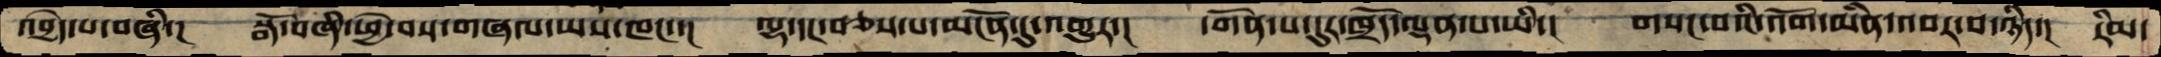འབྱེད་པ་བཞི་།   སྒོ་བཞི་ཕྱེ་བས་གཞལ་ཡས་ཁང་་།  ལྷ་དང་བཅས་པ་མངོན་དུ་འགྱུར་།   དགོན་པ་དུར་ཁྲོད་ལྡན་པ་ཡི་།  གསང་བའི་འོག་མིན་འབར་བ་ཉིད་།  རིམ་
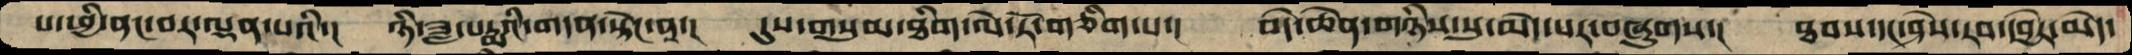པ་ཕྱི་ནང་བར་ལྡན་པའི་།  ཉི་ཟླ་པདྨའི་གདན་སྟེང་ན་།   དུས་གསུམ་ཐིག་ལེ་རོ་གཅིག་པ་།  བདེ་ཆེན་གཉིས་སུ་མེད་པར་བཞུགས་།  ཐབས་དང་ཤེས་རབ་དབྱེར་མེད་
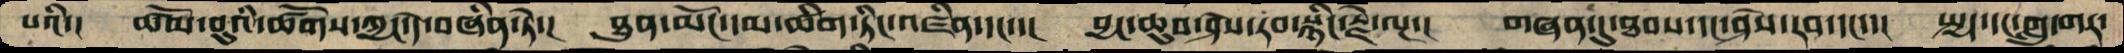པའི་།   ཚོམ་བུའི་ཚོགས་ཀྱང་དེ་བཞིན་ཏེ་།   ཐུན་མོང་དམ་ཚིག་ཏིང་འཛིན་དང་་།  བྱང་ཆུབ་ཤེས་རབ་སྙིང་རྗེ་ལྔ་།  གཞན་དུ་ཐབས་དང་ཤེས་རབ་དང་་།  སྤྱད་དང་གླུ་གར་
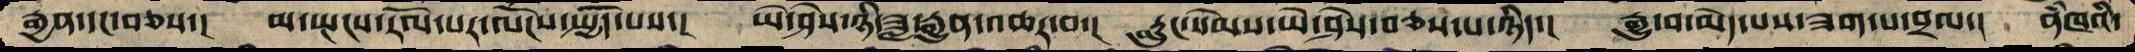རྒྱན་དང་བཅས་།  མ་སྤངས་རོལ་པར་ལོངས་སྤྱོད་པས་།  ཡེ་ཤེས་ཉི་ཟླ་རྒྱུན་འཆར་བ་།  རླུང་སེམས་ཡེ་ཤེས་བཅས་པ་ཉིད་།  རྒྱུ་བ་མེད་པས་ཟག་པ་བྲལ་།  ནཾཁའི་
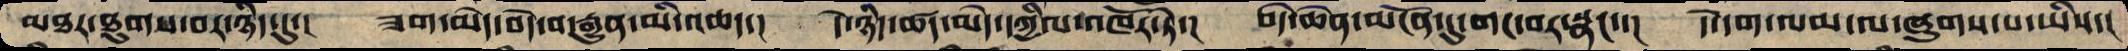མཐར་ཐུགས་བར་ཉིད་དུ་།   ཟག་མེད་བདེ་བ་རྒྱུན་མི་འཆད་།  དེ་ཉིད་ཚད་མེད་དཀྱིལ་འཁོར་ཏེ་།  བདེ་ཆེན་མངོན་དུ་གང་བར་སྣང་་།  དེ་དག་ལམ་ལ་ཞུགས་པ་ཡིས་།
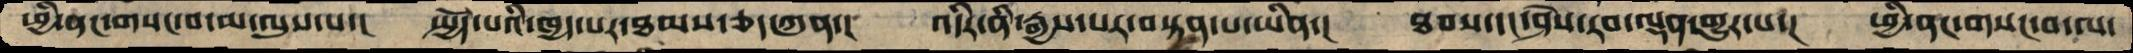ཕྱི་ནང་གསང་བ་མ་ལུས་པ་།  སྤྱོད་པའི་ཁྱད་པར་ཐམས་ཅད་ཀུན་།  འདིར་ནི་རྒྱས་པར་བསྟན་པ་ཡིན་།  ཐབས་དང་ཤེས་རབ་ལྡན་གྱུར་པ་།  ཕྱི་ནང་གསང་བ་ལ་
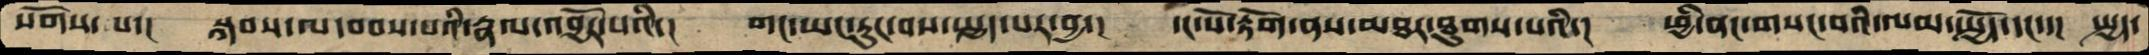སོགས་པ་།  སྐབས་ལ་བབས་པའི་རྣལ་འབྱོར་པའི་།  གང་ཡང་རུང་བས་སྤྱད་པར་བྱ་།  དང་པོ་རྟོག་ནས་མཐར་ཐུགས་པའི་།  ཕྱི་ནང་གསང་བའི་ལམ་སྤྱོད་དང་་།  སྤྱད་
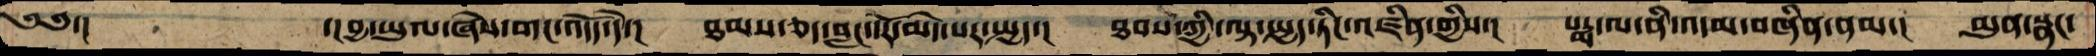༄༅་།      ་།བྱ་ཡུལ་ཞེས་གང་འདོད་དེ་།  ཐམས་ཅད་བླང་དོར་མེད་པར་སྤྱད་།  ཐབས་ཀྱི་ལྟ་སྤྱད་ཏིང་འཛིན་གྱིས་།  པདྨ་ལ་ནི་འདམ་བཞིན་ནམ་།  མུན་སྣང་
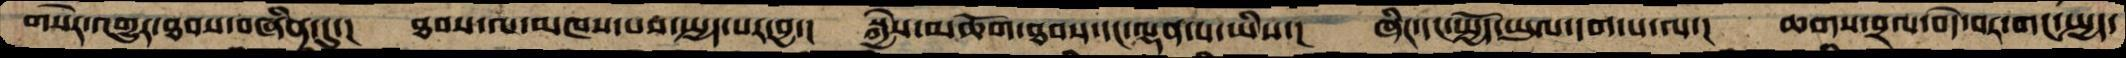གསེར་འགྱུར་ཐབས་བཞིན་དུ་།  ཐབས་ལ་མཁས་པས་སྤྱད་པར་བྱ་།  སྐྱེས་མཆོག་ཐབས་དང་ལྡན་པ་ཡིས་།  ཞིང་དང་སྤྱོད་ཡུལ་དག་པ་ལ་།  ཆགས་བྲལ་བདེ་བར་གང་སྤྱད་
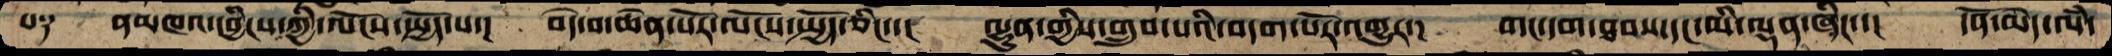པ༑  ནམཁའ་དབྱིངས་ཀྱི་ལོངས་སྤྱོད་པ་།  བདེ་བ་ཆེན་པོར་ལོངས་སྤྱོད་ཅིང་་།  ལྷུན་གྱིས་གྲུབ་པའི་བདག་པོར་འགྱུར་།  གང་དག་ཐབས་དང་མི་ལྡན་ཞིང་་།  དོན་མེད་ལཾ་
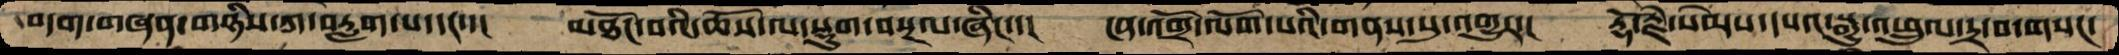བདག་གཞན་གཉིས་ཀ་བརླག་པ་དང་་།  མཐོང་བའི་ཆོས་ལ་སྡུག་བསྔལ་ཞིང་་།  ངན་འགྲོ་ལོག་པའི་གནས་སུ་འགྱུར་།  རྡོ་རྗེ་སེམས་དཔའ་སྒྱུ་འཕྲུལ་དྲ་བ་གསང་
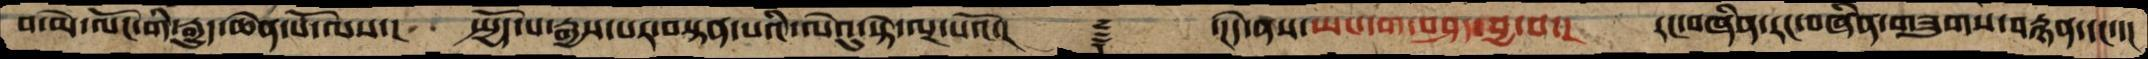མེ་ལོང་གི་རྒྱུད་ཆེན་པོ་ལས་།  སྤྱོད་པ་རྒྱས་པར་བསྟན་པའི་ལེའུ་སྟེ་ལྔ་པའོ་།    ࿑   ་།དེ་ནས་ཡང་དག་བཤད་བྱ་བ་།  རང་བཞིན་རང་བཞིན་གཟུགས་བརྙན་དང་་།
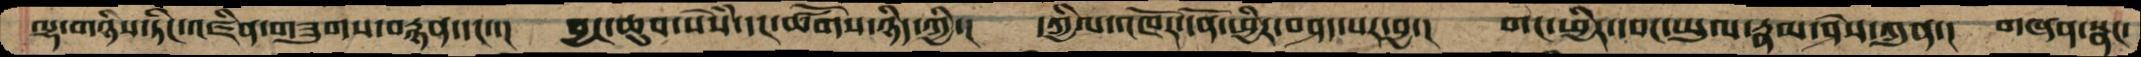ལྷ་གཉིས་ཏིང་འཛིན་གཟུགས་བརྙན་དང་་།  བྱང་ཆུབ་སེཾས་དང་ཚོགས་ཉིད་ཀྱི་།  དཀྱིལ་འཁོར་དོན་ཕྱིར་བཤད་པར་བྱ་།  གང་ཕྱིར་དབང་ཡུལ་རྣམ་ཤེས་ཀུན་།  གཞན་སྣང་
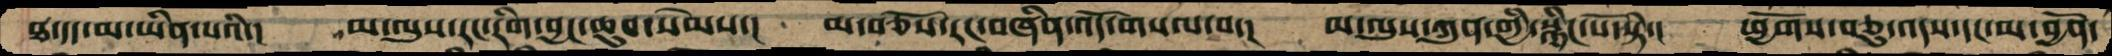ཐ་དད་མ་ཡིན་པའི་།  མ་ལུས་རང་རིག་བྱང་ཆུབ་སེམས་།  མ་བཅོས་རང་བཞིན་འོད་གསལ་བ་།  མ་ལུས་ཀུན་གྱི་སྙིང་པོ་སྟེ་།  ཕྱོགས་བཅུ་འདས་དང་མ་བྱོན་
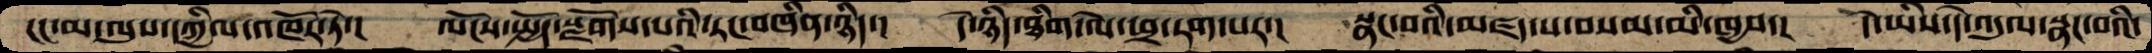ངང་མ་ལུས་དཀྱིལ་འཁོར་ཏེ་།   ལོངས་སྤྱོད་སྫོགས་པའི་རང་བཞིན་ཉིད་།   དེ་ཉིད་ཐིག་ལེ་ཕྲ་རག་པར་།  སྣང་བའི་མཛད་པ་བསམ་མི་ཁྱབ་།  དེ་ཡིས་དེ་འདུལ་སྣང་བའི་
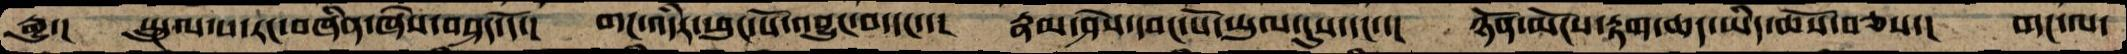རྒྱུ་།  སྤྲུལ་པ་རང་བཞིན་ཞེས་བཤད་དོ་།  གང་འདིར་ཕུང་པོ་འབྱུང་བ་དང་་།  རྣམ་ཤེས་དབང་པོ་ཡུལ་དུས་དང་་།  ཉོན་མོངས་རྟག་ཆད་ཡིད་ཆོས་བཅས་།  གང་ལ་
